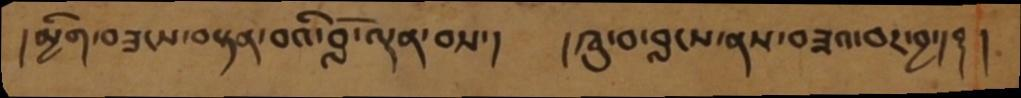།མྱིག་བཟངས་བསྟན་བའི་བློ་ལྡན་བས་།  །ཁུ་བ་བླངས་ནས་བཟའ་བར་བྱ་།  ࿑ །
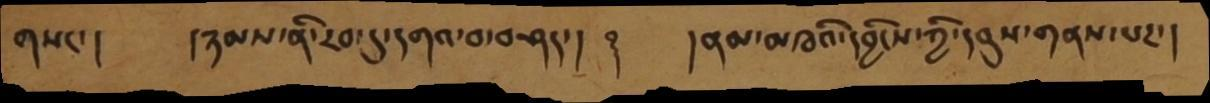གསང་།    །ཉམས་ནི་རབ་དུ་དགའ་བ་བཤད་།   ࿑    །ནམ་མཁའི་དབྱིངས་ཀྱི་དབུས་གནས་པར་།
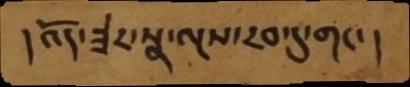།འོད་ཟེར་སྣ་ལྔས་རབ་དུ་གང་།
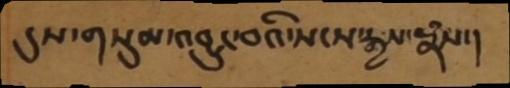དུས་གསུམ་འབྱུང་བའི་སངས་རྒྱས་རྣཾས་།
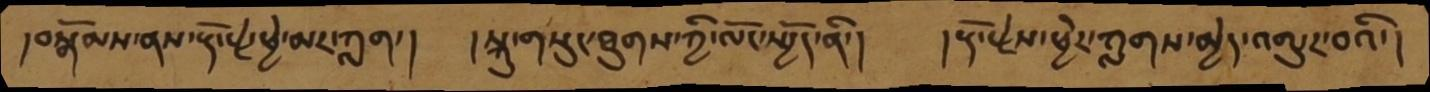།བསྒོམས་ནས་རྡོ་རྗེ་ཕྱེ་མར་ཀླག་།   །སྐུ་གསུང་ཐུགས་ཀྱི་ལོང་སྤྱོད་ནི་།  །རྡོ་རྗེས་ཕྱེར་ཀླགས་མྱེད་འགྱུར་བའི་།
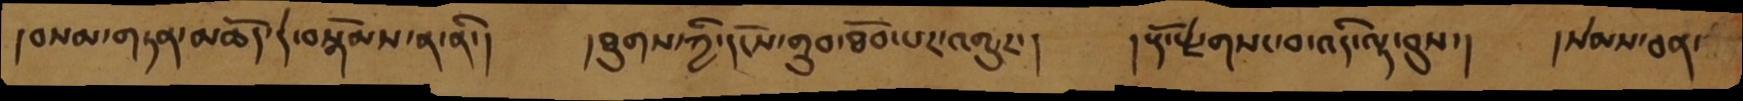།བསམ་གཏན་མཆོད་དེ་བསྒོམས་ན་ནི་།    །ཐུགས་ཀྱི་དངོས་གྲུབ་ཐོབ་པར་འགྱུར་།    །རྡོ་རྗེ་གསང་བ་འདི་ལྟ་བུས་།    །སེམས་ཅན་
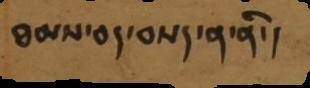ཐམས་ཅད་བསད་ན་ནི་།
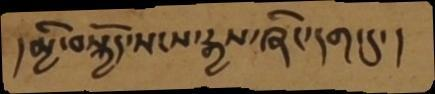།མྱི་བསྐྱོད་སངས་རྒྱས་ཞིང་དག་དུ་།
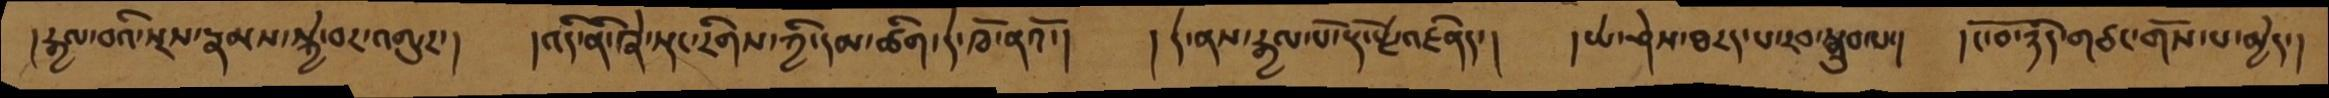།རྒྱལ་བའི་སྲས་རྣམས་སྐྱེ་བར་འགྱུར་།   །འདི་ནི་ཞེ་སྡང་རིགས་ཀྱི་དམ་ཚིག་དེ་ཁོ་ནའོ་།   །དེ་ནས་རྒྱལ་པོ་རྡོ་རྗེ་འཛིན་།    །ཡེ་ཤེས་ཐརད་པ་རབ་སྒྲུབ་པ་།  །ངོ་བོ་ཉིད་གཙང་གོས་པ་མྱེད་།
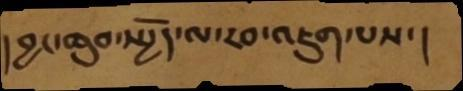།བྱང་ཆུབ་སྤྱོད་ལ་རབ་འཇུག་པས་།
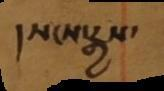།སངས་རྒྱས་
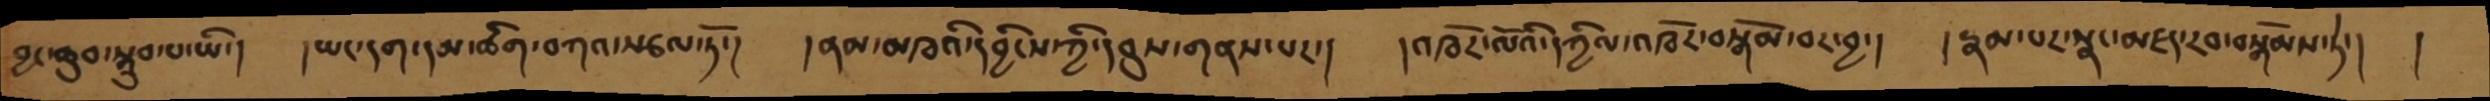བྱང་ཆུབ་སྒྲུབ་པ་ཡི་།   །ཡང་དག་དམ་ཚིག་བཀའ་སྩལ་ཏོ་།   །ནམ་མཁའི་དབྱིངས་ཀྱི་དབུས་གནས་པར་།   །འཁོར་ལོའི་དཀྱིལ་འཁོར་བསྒོམ་བར་བྱ་།   །རྣམ་པར་སྣང་མཛད་རབ་བསྒོམས་ཏེ་།   །
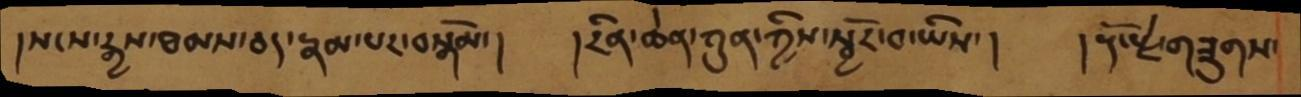།སངས་རྒྱས་ཐམས་ཅད་རྣམ་པར་བསྒོམ་།   །རིན་ཆེན་ཀུན་ཀྱིས་སྦྱོར་བ་ཡིས་།    །རྡོ་རྗེ་གཟུགས་
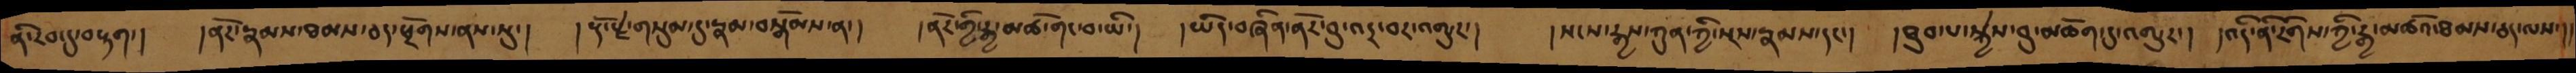ནི་རབ་དུ་བརྟག་།   །ནོར་རྣམས་ཐམས་ཅད་ཕྲོགས་ནས་སུ་།  །རྡོ་རྗེ་གསུམ་དུ་རྣམ་བསྒོམས་ན་།   །ནོར་གྱི་རྒྱ་མཚོ་གང་བ་ཡི་།   །ཡིད་བཞིན་ནོར་བུ་འདྲ་བར་འགྱུར་།   །སངས་རྒྱས་ཀུན་ཀྱི་སྲས་རྣམས་དང་།   །ཐུབ་པ་སྐྱེས་བུ་མཆོག་དུ་འགྱུར་།   །འདི་ནི་རིགས་ཀྱི་རྒྱ་མཚོ་ཐམས་ཅད་ལས་།
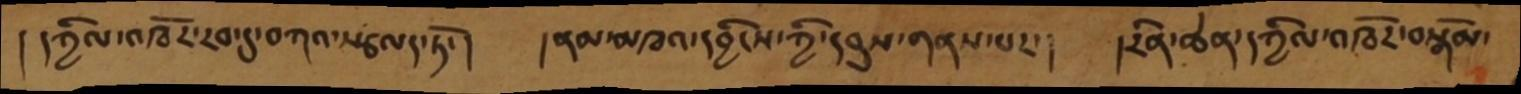།དཀྱིལ་འཁོར་རབ་དུ་བཀའ་སྩལད་ཏོ་།    །ནམ་མཁའ་དབྱིངས་ཀྱི་དབུས་གནས་པར་།   །རིན་ཆེན་དཀྱིལ་འཁོར་བསྒོམ་
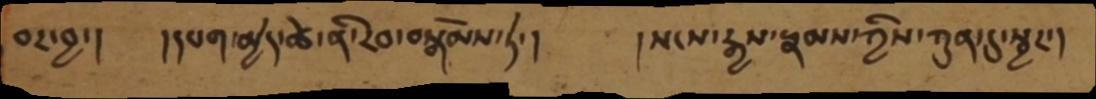བར་བྱ་།   །དཔག་མྱེད་ཚེ་ནི་རབ་བསྒོམས་ཏེ་།     །སངས་རྒྱས་རྣམས་ཀྱིས་ཀུན་དུ་སྦྱར་།
